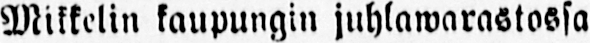Mikkelin kaupungin juhlawarastosa
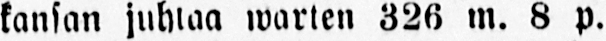kansan juhlaa warten 326 m. 8 p.
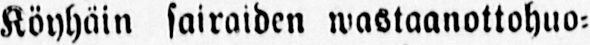Köyhäin sairaiden wastaanottohuo-
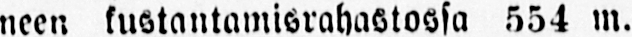neen kustantamisrahastossa 554 m.
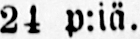24 p:iä.
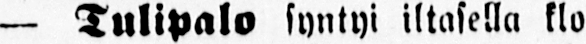— Tulipalo syntyi iltasella klo
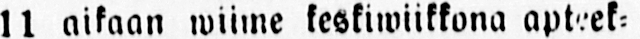11 aikaan wiime keskiwiikkona apteek-
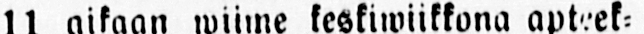kari Grenman'in talossa, jolloin mai-
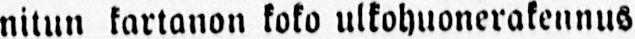nitun kartanon koko ulkohuonerakennus
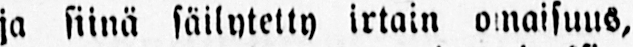ja siinä säilytetty irtain omaisuus,
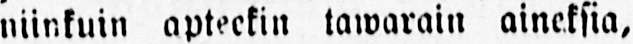niinkuin apteekin tawarain aineksia,
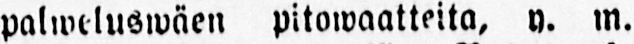palweluswäen pitowaatteita, y. m.
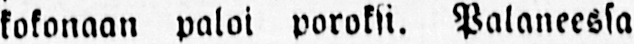kokonaan paloi poroksi. Palaneessa
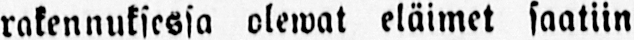rakennuksessa olewat eläimet saatiin
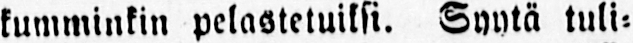kumminkin pelastetuiksi. Syytä tuli-
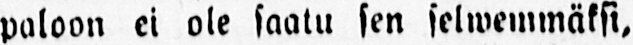paloon ei ole saatu sen selwemmäksi,
